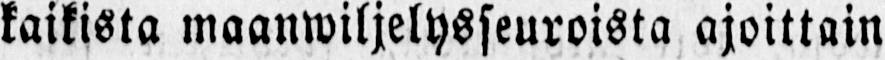kaikista maanwiljelysseuroista ajoittain
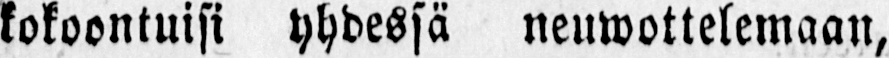kokoontuisi yhdessä neuwottelemaan,
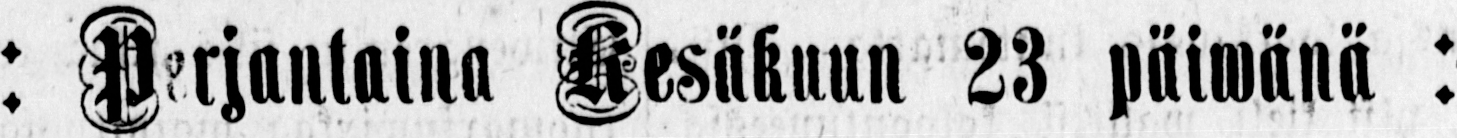: Perjantaina Kesäkuun 23 päiwänä :
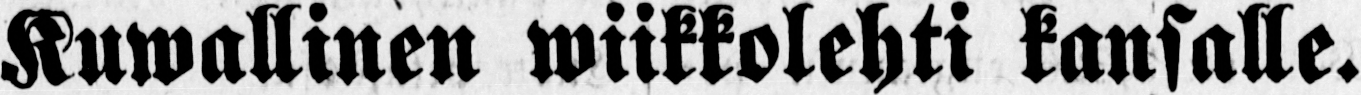Kuwallinen wiikkolehti kansalle.
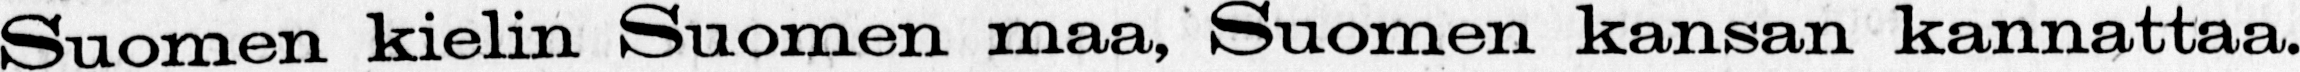Suomen kielin Suomen maa, Suomen kansan kannattaa.
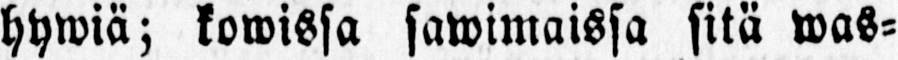hywiä; kowissa sawimaissa sitä was-
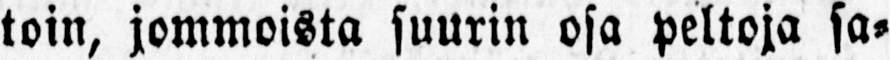toin, jommoista suurin osa peltoja sa-
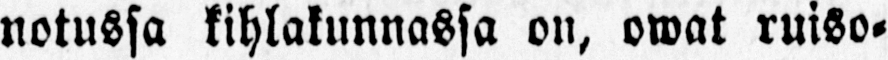notussa kihlakunnassa on, owat ruiso-
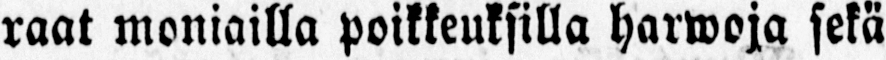raat moniailla poikkeuksilla harwoja sekä
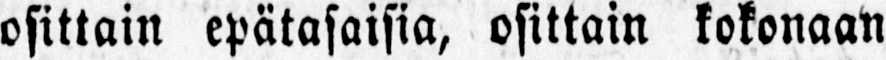osittain epätasaisia, osittain kokonaan
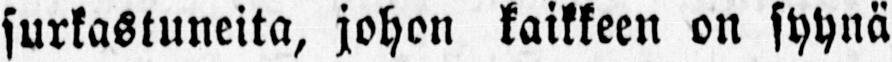surkastuneita, johon kaikkeen on syynä
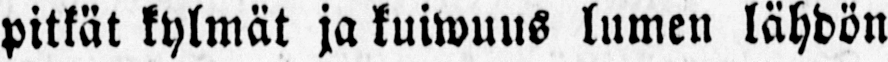pitkät kylmät ja kuiwuus lumen lähdön
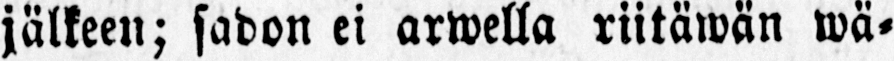jälkeen; sadon ei arwella riitäwän wä-
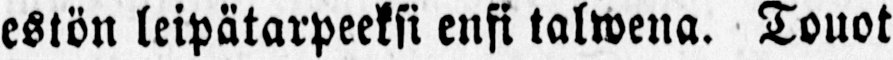estön leipätarpeeksi ensi talwena. Touot
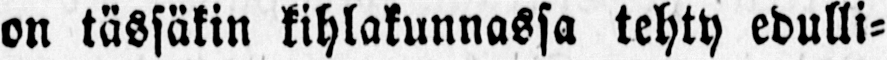on tässäkin kihlakunnassa tehty edulli-
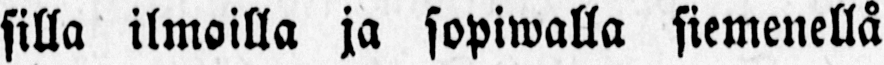silla ilmoilla ja sopiwalla siemenellå
